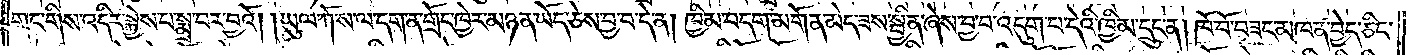གང་གིས་འདིར་སྐྱེས་པ་སྨྲ་བར་བྱའོ། །ཡུལ་ཀོ་ས་ལ་དག་ན་གྲོང་ཁྱེར་མཉན་ཡོད་ཅེས་བྱ་བ་དེ་ན། ཁྱིམ་བདག་མགོན་མེད་ཟས་སྦྱིན་ཞེས་བྱ་བ་འདུག་པ་དེའི་ཁྱིམ་དྲུང་ན། ཁོ་བོ་བཟང་མཁན་བྱེད་ཅིང་
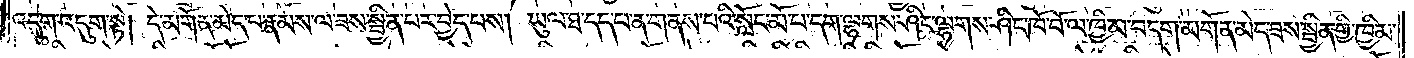འདུག་འདུག་སྟེ། དེ་མགོན་མེད་པ་རྣམས་ལ་ཟས་སྦྱིན་པར་བྱེད་པས། ཡུལ་ཐ་དད་པ་ན་གནས་པའི་སློང་མོ་པ་དག་ལྷགས་ཤིང་ལྷགས་ཤིང་ཁོ་བོ་ལ་ཁྱིམ་བདག་མགོན་མེད་ཟས་སྦྱིན་གྱི་ཁྱིམ་
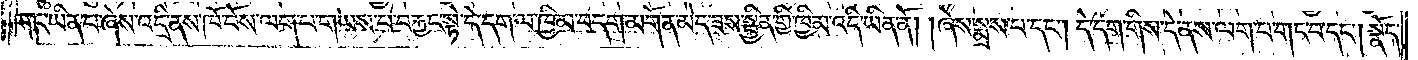གང་ཡིན་པ་ཞེས་འདྲི་ནས་ཁོ་བོས་ལག་པ་གཡས་པ་བརྐྱང་སྟེ་དེ་དག་ལ་ཁྱིམ་བདག་མགོན་མེད་ཟས་སྦྱིན་གྱི་ཁྱིམ་འདི་ཡིན་ནོ། །ཞེས་སྨྲས་པ་དང༌། དེ་དག་གིས་དེ་ནས་ལག་པ་གང་བ་དང༌། སྣོད་
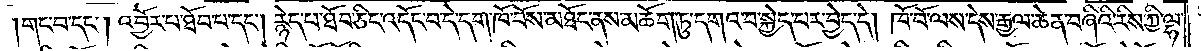།གང་བ་དང༌། འབྱོར་པ་ཐོབ་པ་དང༌། རྙེད་པ་ཐོབ་ཅིང་འདོང་བ་དེ་དག་ཁོ་བོས་མཐོང་ནས་མཆོག་ཏུ་དགའ་བ་སྐྱེད་པར་བྱེད་དེ། ཁོ་བོ་ལས་དེས་རྒྱལ་ཆེན་བཞིའི་རིས་ཀྱི་ལྷ་
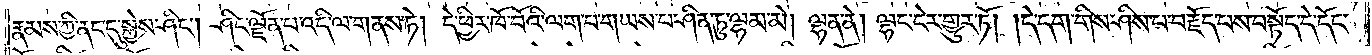རྣམས་ཀྱི་ནང་དུ་སྐྱེས་ཤིང༌། ཤིང་ལྗོན་པ་འདི་ལ་གནས་ཏེ། དེ་ཕྱིར་ཁོ་བོའི་ལག་པ་གཡས་པ་ཤིན་ཏུ་ལྷམ་མེ། ལྷན་ནེ། ལྷང་ངེར་གྱུར་ཏོ། །དེ་དག་གིས་ཤིས་པ་བརྗོད་པས་བསྟོད་དེ་དོང་
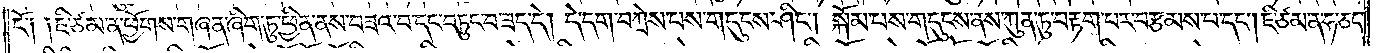ངོ༑ ༑ཇི་ཙམ་ན་ཕྱོགས་གཞན་ཞིག་ཏུ་ཕྱིན་ནས་བཟའ་བ་དང་བཏུང་བ་ཟད་དེ། དེ་དག་བཀྲེས་པས་གདུངས་ཤིང༌། སྐོམ་པས་གདུངས་ནས་ཀུན་ཏུ་བརྟག་པར་བརྩམས་པ་དང༌། ཇི་ཙམ་ན་ཧ་ཅང་
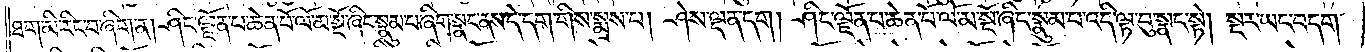ཐག་མི་རིང་བ་ཞིག་ན། ཤིང་ལྗོན་པ་ཆེན་པོ་ལོ་མ་སྔོ་ཞིང་སྣུན་པ་ཞིག་སྣང་ནས་དེ་དག་གིས་སྨྲས་པ། ཤེས་ལྡན་དག། ཤིང་ལྗོན་པ་ཆེན་པོ་ལོ་མ་སྔོ་ཞིང་སྣུམ་པ་འདི་ལྟ་བུ་སྣང་སྟེ། སྔར་ཡང་བདག་
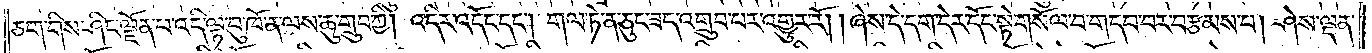ཅག་གིས་ཤིང་ལྗོན་པ་འདི་ལྟ་བུ་ཁོ་ན་ལས་ཆུ་གྲུབ་ཀྱི། འདིར་འདོང་དང༌། གལ་ཏེ་ན་ཅུང་ཟད་འགྲུབ་པར་འགྱུར་རོ། །ཞེས་དེ་དག་དེར་དོང་སྟེ་གསོལ་བ་གདབ་བར་བརྩམས་པ། ཤེས་ལྡན་
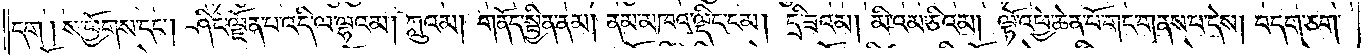དག །ས་ཕྱོགས་དང༌། ཤིང་ལྗོན་པ་འདི་ལ་ལྷའམ། ཀླུའམ། གནོད་སྦྱིན་ནམ། ནམ་མཁའ་ལྡིང་ངམ། དྲི་ཟའམ། མིའམ་ཅིའམ། ལྟོ་འཕྱེ་ཆེན་པོ་གང་གནས་པ་དེས། བདག་ཅག་
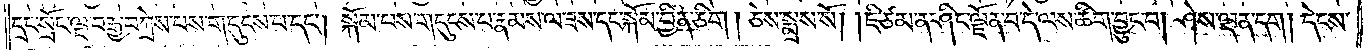དྲང་སྲོང་ལྔ་བརྒྱ་བཀྲེས་པས་གདུངས་པ་དང༌། སྐོམ་པས་གདུངས་པ་རྣམས་ལ་ཟས་དང་སྐོམ་བྱིན་ཅིག། ཅེས་སྨྲས་སོ། །ཇི་ཙམ་ན་ཤིང་ལྗོན་པ་དེ་ལས་ཚིག་བྱུང་བ། ཤེས་ལྡན་དག། དེངས་
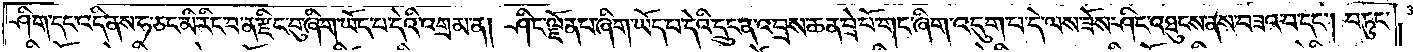ཤིག་དང་འདི་ནས་ཧ་ཅང་མི་རིང་བ་ན་རྫིང་བུ་ཞིག་ཡོད་པ་དེའི་འགྲམ་ན། ཤིང་ལྗོན་པ་ཞིག་ཡོད་པ་དེའི་དྲུང་ན་འབྲས་ཆན་བྲེ་པོ་གང་ཞིག་འདུག་པ་དེ་ལས་ཟོས་ཤིང་འཐུངས་ནས་བཟའ་བ་དང༌། བཏུང་
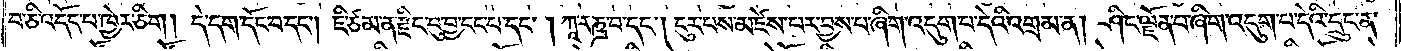བ་ཅི་འདོད་པ་ཁྱེར་ཅིག། དེ་དག་དོང་བ་དང༌། ཇི་ཙམ་ན་རྫིང་བུ་བྱ་ངང་པ་དང༌། ཀཱ་རཎྜ་པ་དང༌། ངུར་པས་མཛེས་པར་བྱས་པ་ཞིག་འདུག་པ་དེའི་འགྲམ་ན། ཤིང་ལྗོན་པ་ཞིག་འདུག་པ་དེའི་དྲུང་ན་
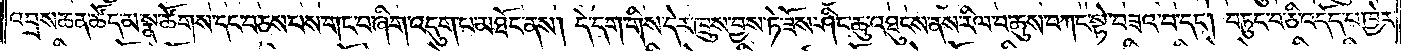འབྲས་ཆན་ཚོད་མ་སྣ་ཚོགས་དང་བཅས་པས་གང་བ་ཞིག་འདུག་པ་མཐོང་ནས། དེ་དག་གིས་དེར་ཁྲུས་བྱས་ཏེ་ཟོས་ཤིང་ཆུ་འཐུང་ནས་རིལ་བ་ཆུས་བཀང་སྟེ་བཟའ་བ་དང༌། བཏུང་བ་ཅི་འདོད་པ་ཁྱེར་
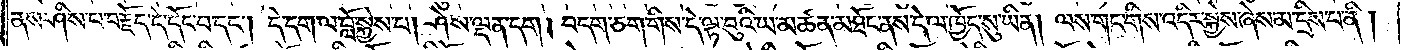ནས་ཤིས་པ་བརྗོད་དེ་དོང་བ་དང༌། དེ་དག་ལ་བློ་སྐྱེས་པ། ཤེས་ལྡན་དག། བདག་ཅག་གིས་དེ་ལྟ་བུའི་ཡ་མཚན་མཐོང་ནས་དེ་ལ་ཁྱོད་སུ་ཡིན། ལས་གང་གིས་འདིར་སྐྱེས་ཞེས་མ་དྲིས་པ་ནི།
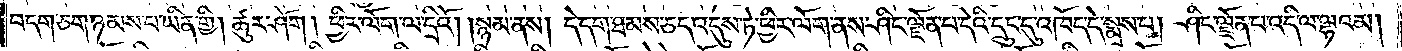བདག་ཅག་ཉམས་པ་ཡིན་གྱི། ཚུར་ཤོག། ཕྱིར་ལོག་ལ་དྲིའོ། །སྙམ་ནས། དེ་དག་ཐམས་ཅད་འདུས་ཏེ་ཕྱིར་ལོག་ནས་ཤིང་ལྗོན་པ་དེའི་དྲུང་དུ་འཁོད་དེ་སྨྲས་པ། ཤིང་ལྗོན་པ་འདི་ལ་ལྷའམ།
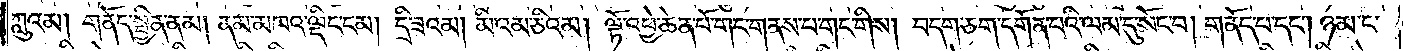ཀླུའམ། གནོད་སྦྱིན་ནམ། ནམ་མཁའ་ལྡིང་ངམ། དྲི་ཟའམ། མིའམ་ཅིའམ། ལྟོ་འཕྱེ་ཆེན་པོ་གང་གནས་པ་གང་གིས། བདག་ཅག་དགོན་པའི་ལམ་དུ་སོང་བ། གནོད་པ་དང༌། ཉམ་ང་
